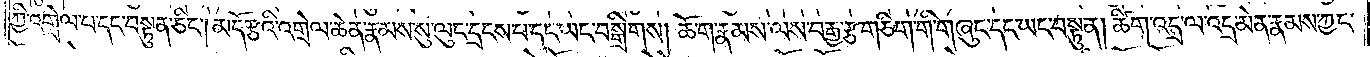ཀྱི་འགྲེལ་པ་དང་བསྟུན་ཅིང༌། མདོ་རྩའི་འགྲེལ་ཆེན་རྣམས་སུ་ལུང་དྲངས་པ་དང་ཡང་བསྒྲིགས། ཆོ་ག་རྣམས་ལས་བརྒྱ་རྩ་གཅིག་གི་གཞུང་དང་ཡང་བསྟུན། ཚིག་འདྲ་ལ་འདྲ་མེན་རྣམས་ཀྱང་
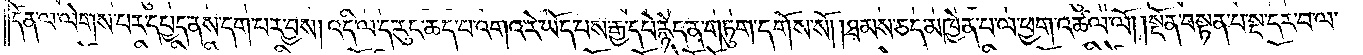དོན་ལ་ལེགས་པར་དཔྱད་ནས་དག་པར་བྱས། འདི་ལ་ད་རུང་ཆད་པ་འགའ་རེ་ཡོད་པས་རྒྱ་དཔེ་རྙེད་ན་གཏུག་དགོས་སོ། །ཐམས་ཅད་མཁྱེན་པ་ལ་ཕྱག་འཚལ་ལོ། །སྔོན་བསྟན་པ་སྔ་དར་བ་ལ་
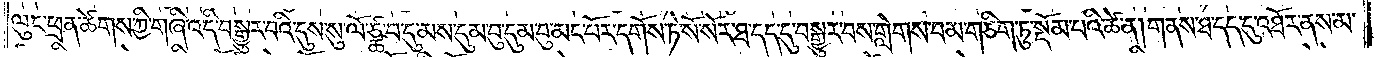ལུང་ཕྲན་ཚེགས་ཀྱི་གཞི་འདི་བསྒྱུར་བའི་དུས་སུ་ལོ་ཙྪ་བ་དུ་མས་དུམ་བུ་དུམ་བུ་མང་པོར་དགོས་ཏེ་སོ་སོར་ཐ་དད་དུ་བསྒྱུར་བས་གླེགས་བམ་གཅིག་ཏུ་སྡོམ་པའི་ཚེ་ན། གནས་ཐ་དད་དུ་འཐོར་ནས་མ་
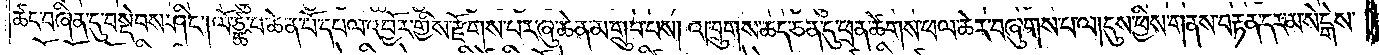ཚང་བཞིན་དུ་བསྡེབས་ཤིང༌། ལོ་ཙྪ་བ་ཆེན་པོ་དཔལ་འབྱོར་གྱིས་རྫོགས་པར་ཞུ་ཆེན་མ་གྲུབ་པས། འཁྲུགས་ཆད་ཅན་དུ་ཕྲན་ཚེགས་ཕལ་ཆེར་བཞུགས་པ་ལ།དུས་ཕྱིས་གནས་བརྟན་དར་མ་སེངྒེས་
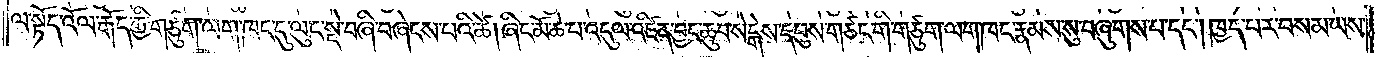ལ་སྟོད་འོལ་རྒོད་ཀྱི་གཙུག་ལག་ཁང་དུ་ལུང་སྡེ་བཞི་བཞེངས་པའི་ཚེ། ཞིང་མོ་ཆེ་པ་འདུལ་འཛིན་བྱང་ཆུབ་སེངྒེས་དབུས་གཙང་གི་གཙུག་ལག་ཁང་རྣམས་སུ་བཞུགས་པ་དང༌། ཁྱད་པར་བསམ་ཡས་
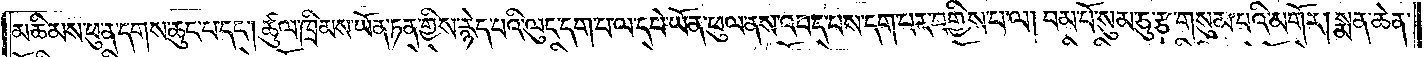མཆིམས་ཕུ་ན་དགས་ཆུང་པ་དང༌། ཚུལ་ཁྲིམས་ཡོན་ཏན་གྱིས་རྙེད་པའི་ལུང་དག་པ་ལ་དཔེ་ཡོན་ཕུལ་ནས་འབད་པས་དག་པར་བགྱིས་པ་ལ། བམ་པོ་སུམ་ཅུ་རྩ་གསུམ་པའི་མགོར། སྨན་ཆེན་
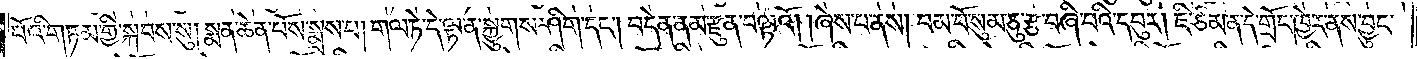པོའི་གཏམ་གྱི་སྐབས་སུ། སྨན་ཆེན་པོས་སྨྲས་པ། གལ་ཏེ་དེ་ལྟ་ན་སྐྱུགས་ཤིག་དང༌། བདེན་ནམ་རྫུན་བལྟའོ། །ཞེས་པ་ནས། བམ་པོ་སུམ་ཅུ་རྩ་བཞི་པའི་དབུར། ཇི་ཙམ་ན་དེ་གྲོང་ཁྱེར་ནས་བྱུང་
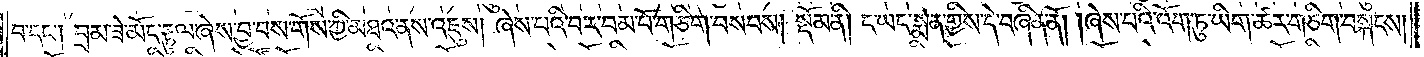བ་དང༌། བྲམ་ཟེ་མོད་རྟུལ་ཞེས་བྱ་བས་གོས་ཀྱི་མཐའ་ནས་འཇུས། ཞེས་པའི་བར་བམ་པོ་གཅིག་བསབས། སྡོམ་ནི། ང་ཡང་སྨན་གྱིས་དེ་བཞིན་ནོ། །ཞེས་པའི་འོག་ཏུ་ཡིག་ཚར་གཅིག་བསྐངས།
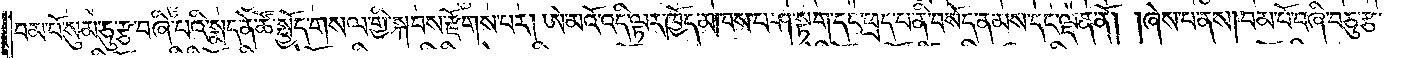བམ་པོ་སུམ་ཅུ་རྩ་བཞི་པའི་སྨད་ནེ་ཚོ་སྤྱོད་གསལ་གྱི་སྐབས་རྫོགས་པར། ཨེ་མའོ་འདི་ལྟར་ཁྱོད་མཁས་པ་ཤ་སྟག་དང་ཕྲད་པ་ནི་བསོད་ནམས་དང་ལྡན་ནོ། །ཞེས་པ་ནས། བམ་པོ་བཞི་བཅུ་རྩ་
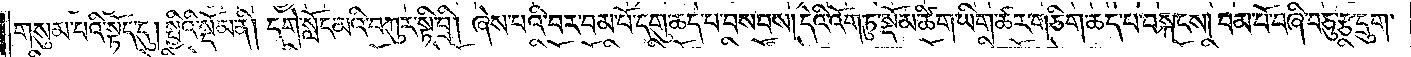གསུམ་པའི་སྟོད་དུ། སྤྱིའི་སྡོམ་ནི། དགེ་སློང་མའི་བཀུར་སྟི་བྲི། ཞེས་པའི་བར་བམ་པོ་དགུ་ཆད་པ་བསབས། དེའི་འོག་ཏུ་སྡོམ་ཚིག་ཡིག་ཚར་གཅིག་ཆད་པ་བསྐངས། བམ་པོ་བཞི་བཅུ་རྩ་དྲུག་
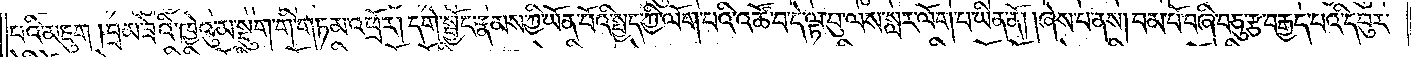པའི་མཇུག །བྲམ་ཟེའི་ཁྱེའུ་མ་སྡུག་གི་གཏམ་འཕྲོར། དགེ་སྦྱོང་རྣམས་ཀྱི་ཡོན་པོའི་སྤྱད་ཀྱི་ལོག་པའི་འཚོ་བ་དེ་ལྟ་བུ་ལས་སླར་ལོག་པ་ཡིན་ནོ། །ཞེས་པ་ནས། བམ་པོ་བཞི་བཅུ་རྩ་བརྒྱད་པའི་དབུར་
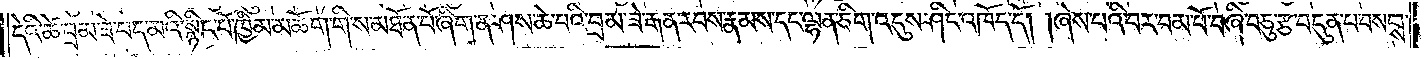དེའི་ཚེ་བྲམ་ཟེ་པད་མའི་སྙིང་པོ་ཁྱིམ་མཆོག་གི་ས་མཐོན་པོ་ཞིག་ན་ཤས་ཆེ་བའི་བྲམ་ཟེ་རྒན་རབས་རྣམས་དང་ལྷན་ཅིག་འདུས་ཤིང་འཁོད་དོ། །ཞེས་པའི་བར་བམ་པོ་བཞི་བཅུ་རྩ་བདུན་པ་བསབས་
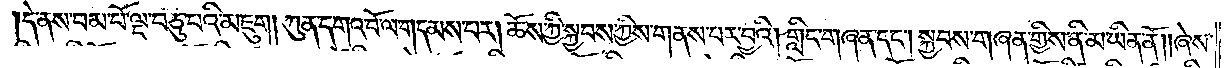།དེ་ནས་བམ་པོ་ལྔ་བཅུ་པའི་མཇུག །ཀུན་དགའ་བོ་ལ་གདམས་པར། ཆོས་ཀྱི་སྐྱབས་ཀྱིས་གནས་པར་བྱའི། གླིང་གཞན་དང༌། སྐྱབས་གཞན་གྱིས་ནི་མ་ཡིན་ནོ། །ཞེས་
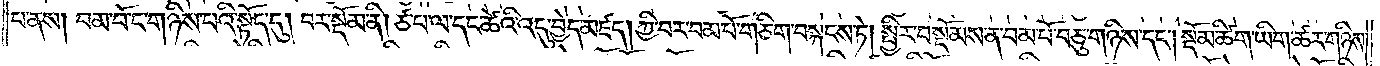པ་ནས། བམ་པོ་ང་གཉིས་པའི་སྟོད་དུ། བར་སྡོམ་ནི། ཙ་པ་ལ་དང་ཚེའི་འདུ་བྱེད་མཛད། ཀྱི་བར་བམ་པོ་གཅིག་བསྐངས་ཏེ། སྤྱིར་བསྡོམས་ན་བམ་པོ་བཅུ་གཉིས་དང༌། སྡོམ་ཚིག་ཡིག་ཚར་གཉིས་
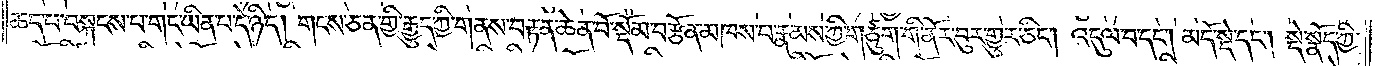ཆད་པ་བསྐངས་པ་གང་ཡིན་པ་དེ་ཉིད། གངས་ཅན་གྱི་རྒྱུད་ཀྱི་གནས་བརྟན་ཆེན་པོ་སྡོམ་བརྩོན་མཁས་པ་རྣམས་ཀྱི་གཙུག་གི་ནོར་བུར་གྱུར་ཅིང༌། འདུལ་བ་དང༌། མདོ་སྡེ་དང༌། སྡེ་སྣོད་ཀྱི་
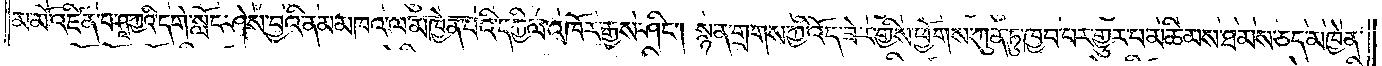མ་མོ་འཛིན་པ་ཤཱཀྱའི་དགེ་སློང་ཤེས་བྱའི་ནམ་མཁའ་ལ་མཁྱེན་པའི་དཀྱིལ་འཁོར་རྒྱས་ཤིང༌། སྙན་གྲགས་ཀྱི་འོད་ཟེར་གྱིས་ཕྱོགས་ཀུན་ཏུ་ཁྱབ་པར་གྱུར་པ་མཆིམས་ཐམས་ཅད་མཁྱེན་
